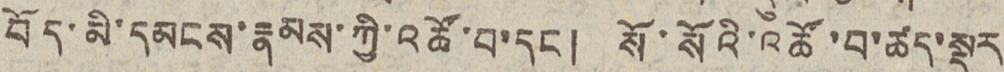བོད་མི་དམངས་རྣམས་ཀྱི་འཚོ་བ་དང། སོ་སོའི་འཚོ་བ་ཚད་སྡུར
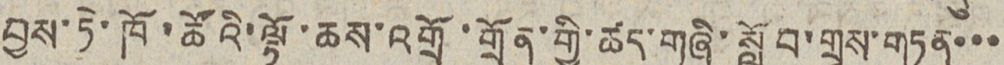བྱས་ཏེ་ཁོ་ཚོའི་ལྟོ་ཆས་འགྲོ་གྲོན་གྱི་ཚད་གཞི་སློབ་གྲྭས་གཏན་་་
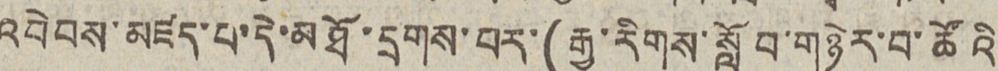འབེབས་མཛད་པ་དེ་མཐོ་དྲགས་པར་(རྒྱ་རིགས་སློབ་གཉེར་བ་ཚོའི
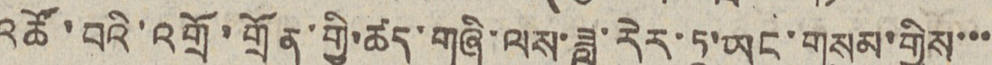འཚོ་བའི་འགོར་གྲོན་གྱི་ཚད་གཞི་ལས་ཟླ་རེར་ཏཱ་ཡང་གསུམ་གྱིས་་་
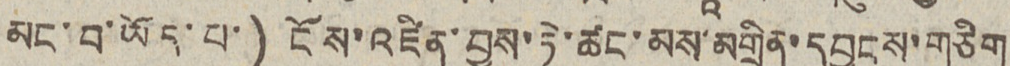མང་བ་ཡོད་པ་) ངོས་འཛིན་བྱས་ཏེ་ཚང་མས་མགྲིན་དབྱངས་གཅིག
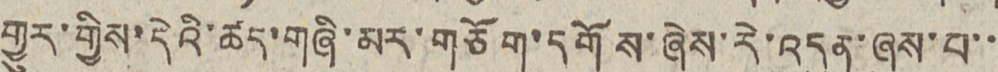གྱུར་གྱིས་དེའི་ཚད་གཞི་མར་གཅོག་དགོས་ཞེས་རེ་འདུན་ཞུས་པ་་
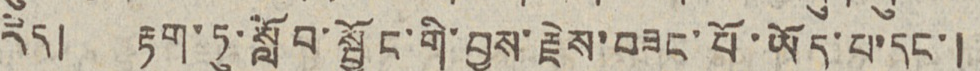རེད། རྟག་ཏུ་སློབ་སྦྱོང་གི་བྱས་རྗེས་བཟང་པོ་ཡོད་པ་དང་།
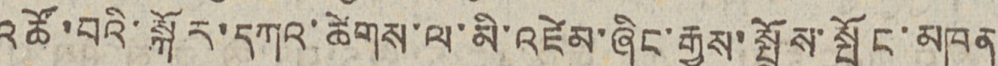འཚོ་བའི་སྐོར་དཀའ་ཚེགས་ལ་མི་འཛེམ་ཞིང་རྒྱས་སྤྲོས་སྤོང་མཁན
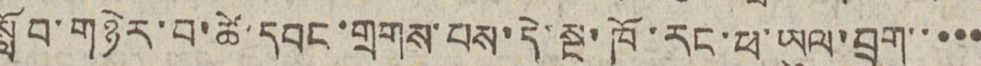སློབ་གཉེར་བ་ཚེ་དབང་གྲགས་པས་དེ་སྔ་ཁོ་རང་ཕ་ཡུལ་བྲག་་་་་
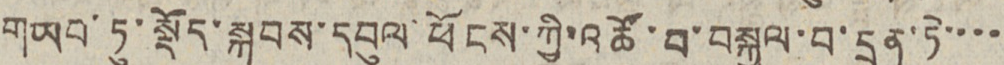གཡབ་ཏུ་སྡོད་སྐབས་དཔུལ་ཕོངས་ཀྱི་འཚོ་བ་བསྐྱལ་བ་དྲན་ཏེ་་་་
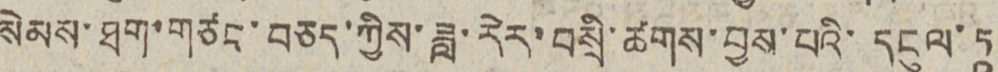སེམས་ཐག་གཙང་བཅད་ཀྱིས་ཟླ་རེར་བསྲི་ཚགས་བྱས་པའི་དངུལ་ཏཱ
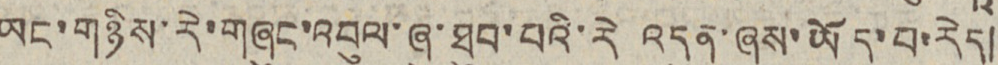ཡང་གཉིས་རེ་གཞུང་འབུལ་ཞུ་ཐུབ་པའི་རེ འདུན་ཞུས་ཡོད་པ་རེད།
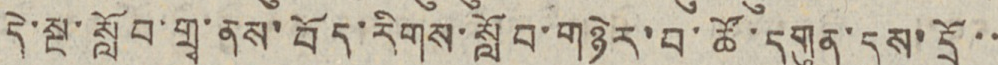དེ་སྔ་སློབ་གྲྭ་ནས་བོད་རིགས་སློབ་གཉེར་བ་ཚོ་དགུན་དུས་དྲོ་་
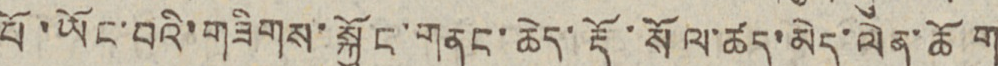པོ་ཡོང་བའི་གཟིགས་སྐྱོང་གནང་ཆེད་རྡོ་སོལ་ཚད་མེད་ལེན་ཆོག
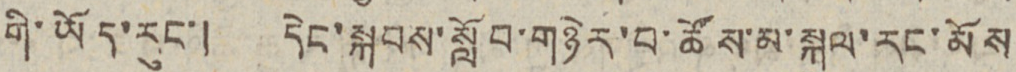གི་ཡོད་རུང་། དེང་སྐབས་སློབ་གཉེར་བ་ཚོས་མ་སྐུལ་རང་མོས
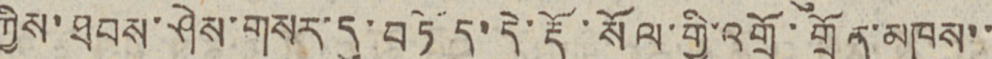ཀྱིས་ཐབས་ཤེས་གསར་དུ་བཏོད་དེ་རྡོ་སོལ་གྱི་འགྲོ་གྲོན་མཁས་་
